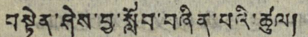བསྟེན་ཤེས་བྱ་སློབ་བཞིན་པའི་ཚུལ།
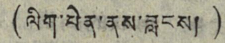(ལིག་པེན་ནས་བླངས།)
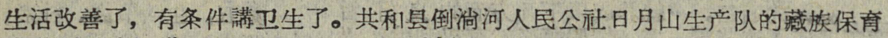生活改善了，有条件講卫生了。共和县倒淌河人民公社日月山生产队的藏族保育
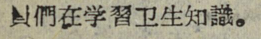員們在学習卫生知識。
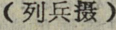（列兵摄）
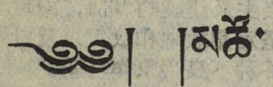༄༅། །མཚོ་
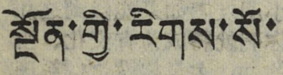སྔོན་གྱི་རིགས་སོ་
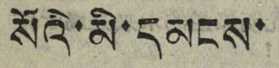སོའི་མི་དམངས་
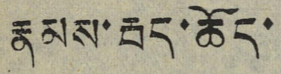རྣམས་རྦད་ཆོད་
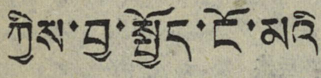ཀྱིས་བྱ་སྤྱོད་ངོ་མའི
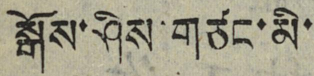སྒོས་ཤིས་གཙང་མི་
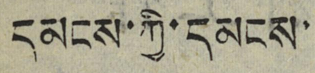དམངས་ཀྱི་དམངས་
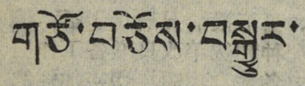གཙོ་བཅོས་བསྒྱུར་
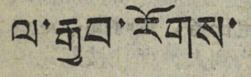ལ་རྒྱབ་རོགས་
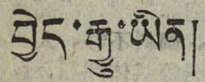བྱེད་རྒྱུ་ཡིན།
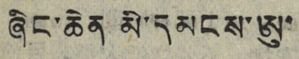ཞིང་ཆེན་མི་དམངས་ཨུ་
